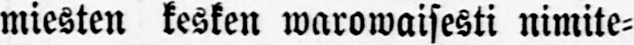miesten kesken warowaisesti nimite-
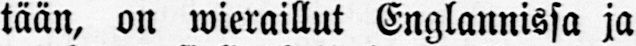tään, on wieraillut Englannissa ja
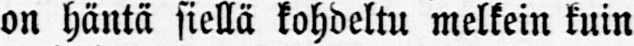on häntä siellä kohdeltu melkein kuin
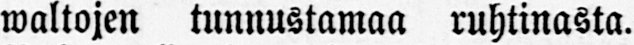waltojen tunnustamaa ruhtinasta.
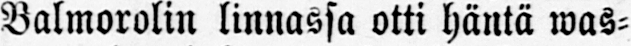Balmorolin linnassa otti häntä was-
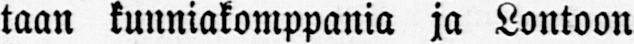taan kunniakomppania ja Lontoon
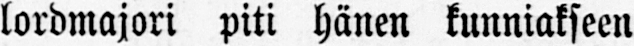lordmajori piti hänen kunniakseen
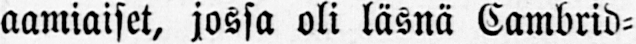aamiaiset, jossa oli läsnä Cambrid-
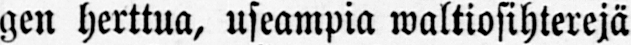gen herttua, useampia waltiosihterejä
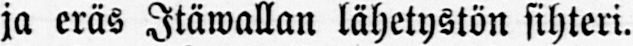ja eräs Itäwallan lähetystön sihteri.
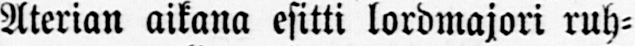Aterian aikana esitti lordmajori ruh-
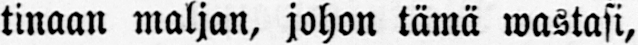tinaan maljan, johon tämä wastasi,
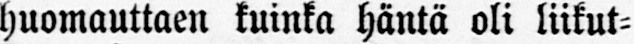huomauttaen kuinka häntä oli liikut-
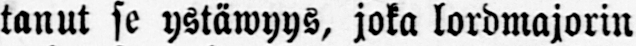tanut se ystäwyys, joka lordmajorin
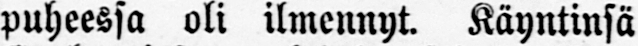puheessa oli ilmennyt. Käyntinsä
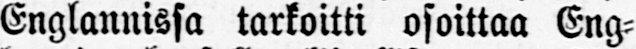Englannissa tarkoitti osoittaa Eng-
